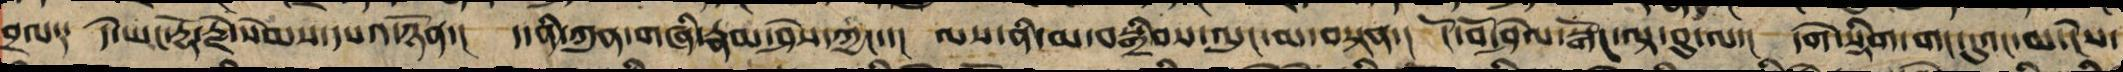བྲལ༑ དེ་ཡང་རྡོ་རྗེ་སེམས་དཔའ་ཉོན་། ད་ནི་ཀུན་གཞི་རྣམ་ཤེས་ཀྱང་་། ལས་ཀྱིས་མ་བསྒྲིབས་ལུང་མ་བསྟན་། ངོ་བོ་ཤེལ་སྒོང་ལྟ་བུ་ལ་། དགེ་སྡིག་གང་དུའང་མ་ངེས་
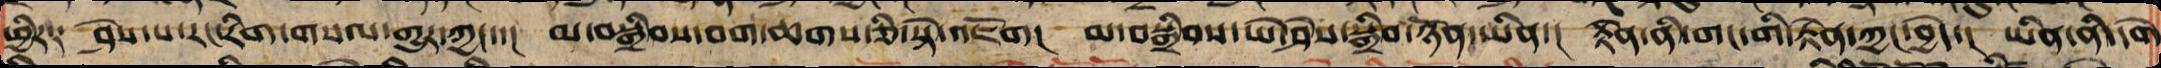ཕྱིར༑ ཤེས་པ་རང་རིག་གསལ་གྱུར་ཀྱང་་། མ་བསྒྲིབས་བག་ཆགས་ཅི་སྟེ་འཇོག། མ་བསྒྲིབས་ཡེ་ཤེས་སྒྲིབ་ཉོན་ཡིན་། རྟེན་ནི་གང་གི་རྟེན་ཀྱང་བྱེད་། ཡིན་ནི་དགེ
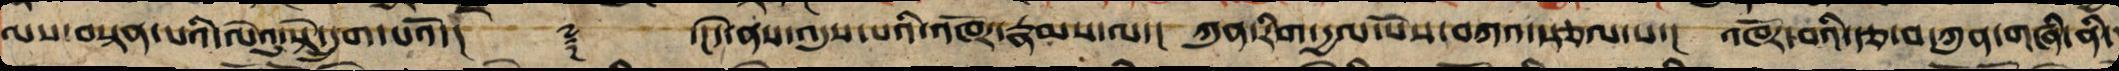ལས་བསྟན་པའི་ལེའུ་སྟེ་དྲུག་པའོ་།། ༈ ་།།དེ་ནས་འདུས་པའི་འཁོར་རྣམས་ལ་། ཀུན་རིག་རྒྱལ་པོས་བཀའ་སྩལ་པ་། འཁོར་བའི་རྩ་བ་ཀུན་གཞི་ནི་།
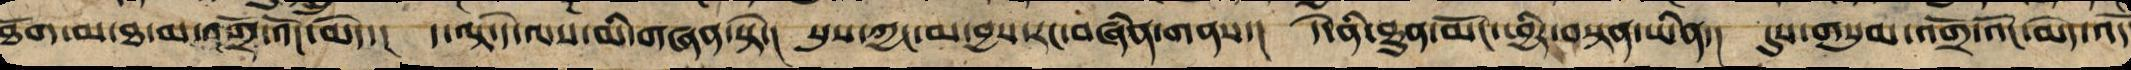ཐོག་མ་ཐ་མ་འགྲོ་འོང་མེད་། ད་ལྟ་དེ་ལས་མི་གཞན་སྟེ་། སུས་ཀྱང་མ་བྱས་རང་བཞིན་གནས་། དེ་ནི་ཐུན་མོང་སྤྱིར་བསྟན་ཡིན་། དུས་གསུམ་འགྲོ་འོང་མེད་འདོད
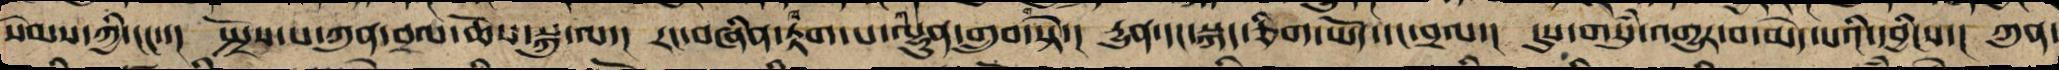སེམས་ཀྱི་ངང་། སྤྲོས་པ་ཀུན་བྲལ་ཆོས་སྐུ་ལ་། རང་བཞིན་རྟག་པ་ལྷུན་གྲུབ་སྟེ་། རྒྱུན་དང་སྐད་ཅིག་ཡོད་དང་བྲལ་། དུས་གསུཾ་འགྱུར་བ་མེད་པའི་དབྱིངས་། ཀུན་
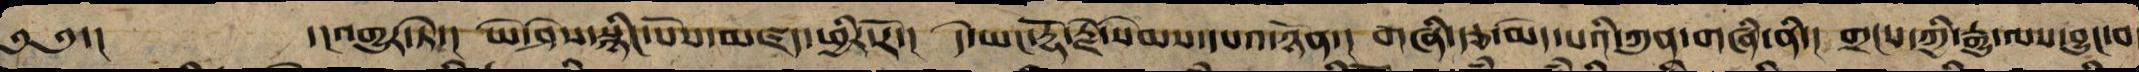༄༅་། ་།འགྱུར་ཏེ་། ཡེ་ཤེས་སྙིང་པོས་མཛད་ཕྱིར་རོ་། དེ་ཡང་རྡོ་རྗེ་སེམས་དཔའ་ཉོན་། གཞི་རྩ་མེད་པའི་ཀུན་གཞི་ནི་། གྲངས་ཀྱི་རྒྱུ་ལས་བྱུང་བ
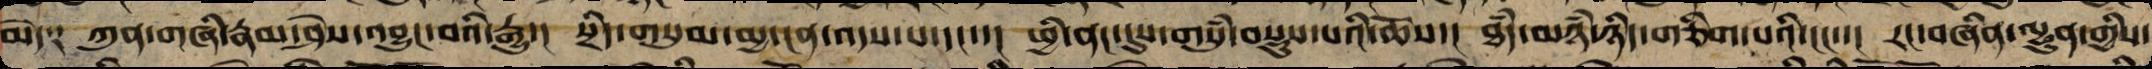མེད༑ ཀུན་གཞི་རྣམ་ཤེས་འབྱུང་བའི་རྒྱུ་། སྲིད་གསུམ་མྱ་ངན་འདས་པ་དང་་། ཕྱི་ནང་དུས་གསུཾ་བསྡུས་པའི་ཆོས་། ཐཾད་མཉཾ་ཉིད་གཅིག་པའི་ངང་་། རང་བཞིན་ལྷུན་གྱིས་
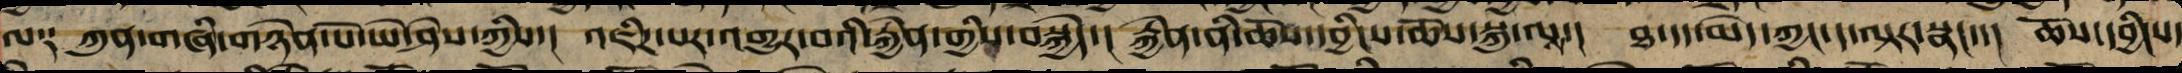ལ༑ ཀུན་གཞི་གཉེན་པོ་ཡེ་ཤེས་ཀྱིས་། འཇིཌ་པར་འགྱུར་བས་རྐྱེན་གྱིས་བསྐྱེད་། རྐྱེན་ནི་ཆོས་དབྱིངས་ཆོས་སྐུ་ལྟ་། ཐ་དད་མེད་ཀྱང་དེ་ལྟར་སྣང་་། ཆོས་དབྱིངས་
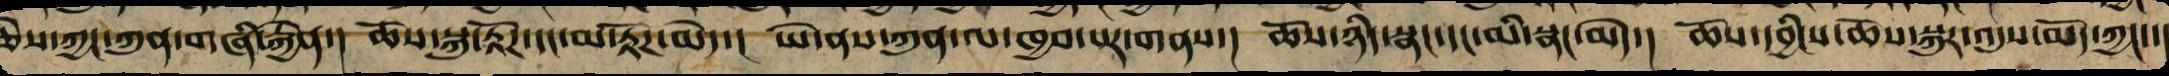ཅེས་ཀྱང་ཀུན་གཞི་རྐྱེན་། ཆོས་སྐུ་རྟོཌ་དང་མ་རྟོཌ་མེད་། ཡེ་ནས་ཀུན་ལ་ཁྱབ་པར་གནས་། ཆོས་ཉིད་སྣང་དང་མི་སྣང་མེད་། ཆོས་དབྱིངས་ཆོས་སྐུར་འདུས་མོད་ཀྱང་་།
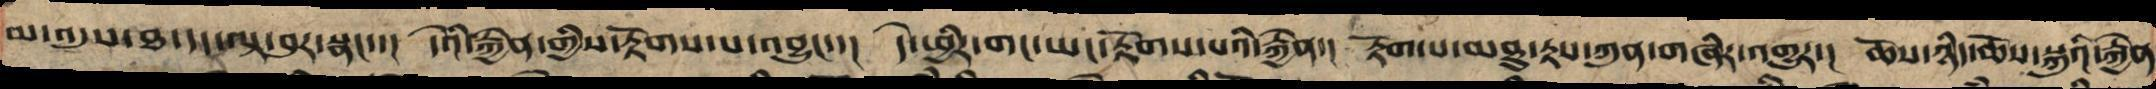མ་འདུས་ཐ་དད་ལྟ་བུར་སྣང་་། དེ་ཡི་རྐྱེན་གྱིས་རྟོགས་པ་བྱུང་་། དེ་ཕྱིར་གང་ཡང་རྟོག་པའི་རྐྱེན་། རྟོག་པའི་མཐུ་རྟས་ཀུན་གཞིར་འགྱུར་། ཆོས་ཉིད་ཆོས་སྐུའི་རྐྱེན་
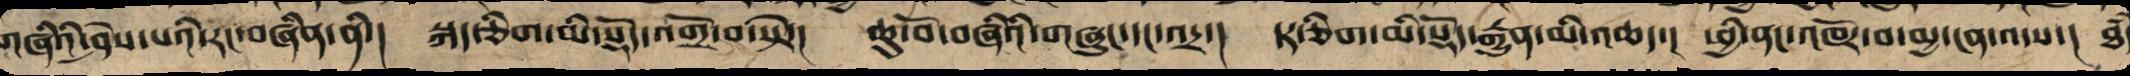གཞིའི་ཤེས་པའི་རང་བཞིན་ནི་། སྐད་ཅིག་མི་སྡོད་འགྲོ་བ་སྟེ་། ཆུ་བོ་བཞིའི་གཞུང་དང་འདྲ་། དར་ཅིག་མི་སྡོད་རྒྱུན་མི་འཆད་། ཕྱི་ནང་འཁོར་བ་མྱ་ངན་འདས་། ཐཾད་
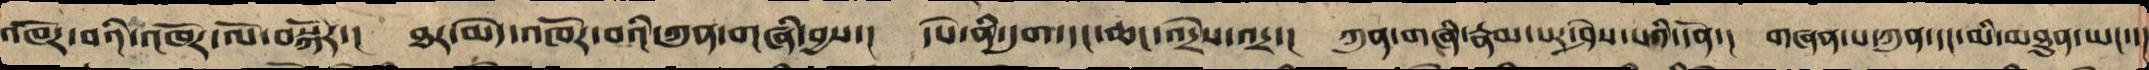འཁོར་བའི་འཁོར་ལོ་བསྐོར་། ཐར་མེད་འཁོར་བའི་ཀུན་གཞི་བྱས་། དཔེ་ནི་དུག་དང་ཆང་འདྲེས་འདྲ་། ཀུན་གཞི་རྣམ་པར་ཤེས་པའི་དོན་། གཞན་པ་ཀུན་དང་མི་མཐུན་ཡང་་།
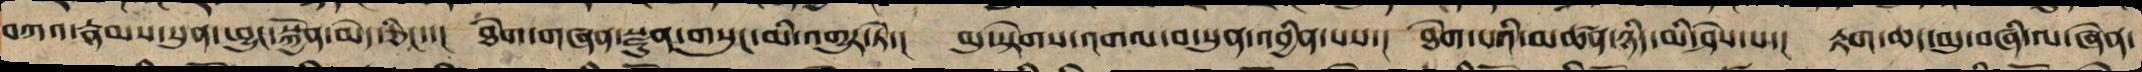བཀའ་རྣམས་སུན་ཕྱུང་སྐྱོན་མེད་ཅིང་་། ཐེག་གཞན་སྫུན་གསུང་མི་འགྱུར་ཏེ་། མུ་སྟེགས་འགལ་བ་སུན་འབྱིན་པས་། ཐེག་པའི་མཚན་ཉིད་མི་ཤེས་པས་། རྟག་ཆད་མུ་བཞི་ལ་ཞེན་
